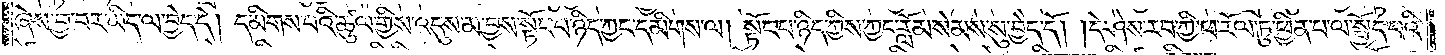ཞེས་བྱ་བར་ཡིད་ལ་བྱེད་དེ། དམིགས་པའི་ཚུལ་གྱིས་འདུས་མ་བྱས་སྟོང་པ་ཉིད་ཀྱང་དམིགས་ལ། སྟོང་པ་ཉིད་ཀྱིས་ཀྱང་རློམ་སེམས་སུ་བྱེད་དོ། །དེ་ཤེས་རབ་ཀྱི་ཕ་རོལ་ཏུ་ཕྱིན་པ་ལ་སྤྱོད་པའི་
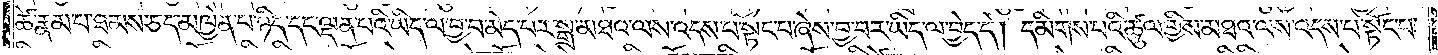ཚེ་རྣམ་པ་ཐམས་ཅད་མཁྱེན་པ་ཉིད་དང་ལྡན་པའི་ཡིད་ལ་བྱ་བ་མེད་པར་སྒྲ་མཐའ་ལས་འདས་པ་སྟོང་པ་ཞེས་བྱ་བར་ཡིད་ལ་བྱེད་དེ། དམིགས་པའི་ཚུལ་གྱིས་མཐའ་ལས་འདས་པ་སྟོང་པ་
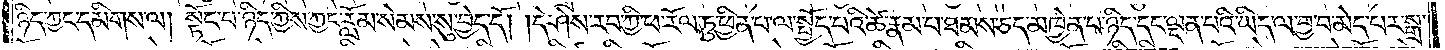ཉིད་ཀྱང་དམིགས་ལ། སྟོང་པ་ཉིད་ཀྱིས་ཀྱང་རློམ་སེམས་སུ་བྱེད་དོ། །དེ་ཤེས་རབ་ཀྱི་ཕ་རོལ་ཏུ་ཕྱིན་པ་ལ་སྤྱོད་པའི་ཚེ་རྣམ་པ་ཐམས་ཅད་མཁྱེན་པ་ཉིད་དང་ལྡན་པའི་ཡིད་ལ་བྱ་བ་མེད་པར་སྒྲ་
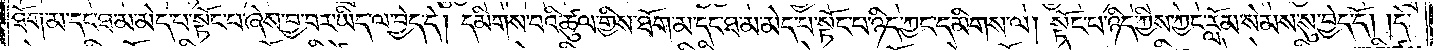ཐོག་མ་དང་ཐ་མ་མེད་པ་སྟོང་པ་ཞེས་བྱ་བར་ཡིད་ལ་བྱེད་དེ། དམིགས་པའི་ཚུལ་གྱིས་ཐོག་མ་དང་ཐ་མ་མེད་པ་སྟོང་པ་ཉིད་ཀྱང་དམིགས་ལ། སྟོང་པ་ཉིད་ཀྱིས་ཀྱང་རློམ་སེམས་སུ་བྱེད་དོ། །དེ་
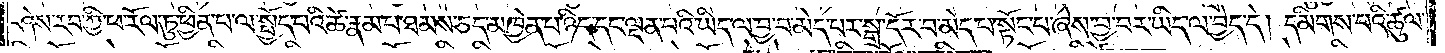ཤེས་རབ་ཀྱི་ཕ་རོལ་ཏུ་ཕྱིན་པ་ལ་སྤྱོད་པའི་ཚེ་རྣམ་པ་ཐམས་ཅད་མཁྱེན་པ་ཉིད་དང་ལྡན་པའི་ཡིད་ལ་བྱ་བ་མེད་པར་སྒྲ་དོར་བ་མེད་པ་སྟོང་པ་ཞེས་བྱ་བར་ཡིད་ལ་བྱེད་དེ། དམིགས་པའི་ཚུལ་
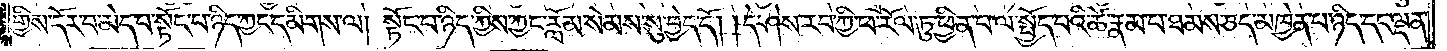གྱིས་དོར་བ་མེད་པ་སྟོང་པ་ཉིད་ཀྱང་དམིགས་ལ། སྟོང་པ་ཉིད་ཀྱིས་ཀྱང་རློམ་སེམས་སུ་བྱེད་དོ། །དེ་ཤེས་རབ་ཀྱི་ཕ་རོལ་ཏུ་ཕྱིན་པ་ལ་སྤྱོད་པའི་ཚེ་རྣམ་པ་ཐམས་ཅད་མཁྱེན་པ་ཉིད་དང་ལྡན་
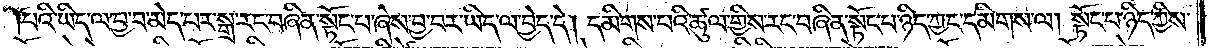པའི་ཡིད་ལ་བྱ་བ་མེད་པར་སྒྲ་རང་བཞིན་སྟོང་པ་ཞེས་བྱ་བར་ཡིད་ལ་བྱེད་དེ། དམིགས་པའི་ཚུལ་གྱིས་རང་བཞིན་སྟོང་པ་ཉིད་ཀྱང་དམིགས་ལ། སྟོང་པ་ཉིད་ཀྱིས་
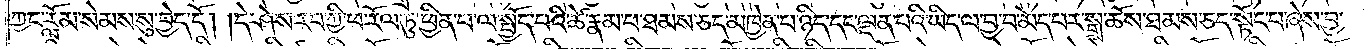ཀྱང་རློམ་སེམས་སུ་བྱེད་དོ། །དེ་ཤེས་རབ་ཀྱི་ཕ་རོལ་ཏུ་ཕྱིན་པ་ལ་སྤྱོད་པའི་ཚེ་རྣམ་པ་ཐམས་ཅད་མཁྱེན་པ་ཉིད་དང་ལྡན་པའི་ཡིད་ལ་བྱ་བ་མེད་པར་སྒྲ་ཆོས་ཐམས་ཅད་སྟོང་པ་ཞེས་བྱ་
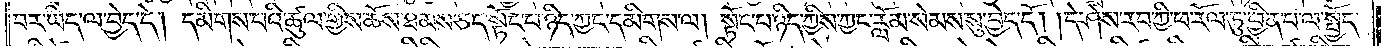བར་ཡིད་ལ་བྱེད་དེ། དམིགས་པའི་ཚུལ་གྱིས་ཆོས་ཐམས་ཅད་སྟོང་པ་ཉིད་ཀྱང་དམིགས་ལ། སྟོང་པ་ཉིད་ཀྱིས་ཀྱང་རློམ་སེམས་སུ་བྱེད་དོ། །དེ་ཤེས་རབ་ཀྱི་ཕ་རོལ་ཏུ་ཕྱིན་པ་ལ་སྤྱོད་
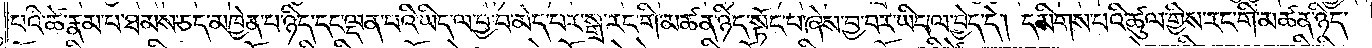པའི་ཚེ་རྣམ་པ་ཐམས་ཅད་མཁྱེན་པ་ཉིད་དང་ལྡན་པའི་ཡིད་ལ་བྱ་བ་མེད་པར་སྒྲ་རང་གི་མཚན་ཉིད་སྟོང་པ་ཞེས་བྱ་བར་ཡིད་ལ་བྱེད་དེ། དམིགས་པའི་ཚུལ་གྱིས་རང་གི་མཚན་ཉིད་
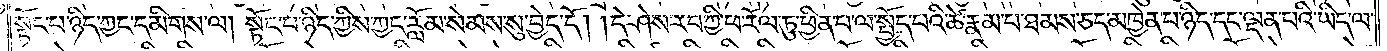སྟོང་པ་ཉིད་ཀྱང་དམིགས་ལ། སྟོང་པ་ཉིད་ཀྱིས་ཀྱང་རློམ་སེམས་སུ་བྱེད་དོ། །དེ་ཤེས་རབ་ཀྱི་ཕ་རོལ་ཏུ་ཕྱིན་པ་ལ་སྤྱོད་པའི་ཚེ་རྣམ་པ་ཐམས་ཅད་མཁྱེན་པ་ཉིད་དང་ལྡན་པའི་ཡིད་ལ་
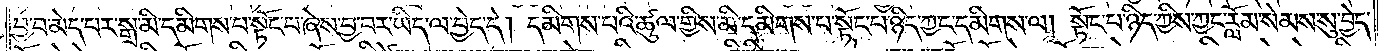བྱ་བ་མེད་པར་སྒྲ་མི་དམིགས་པ་སྟོང་པ་ཞེས་བྱ་བར་ཡིད་ལ་བྱེད་དེ། དམིགས་པའི་ཚུལ་གྱིས་མི་དམིགས་པ་སྟོང་པ་ཉིད་ཀྱང་དམིགས་ལ། སྟོང་པ་ཉིད་ཀྱིས་ཀྱང་རློམ་སེམས་སུ་བྱེད་
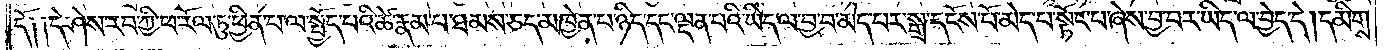དོ༑ ༑དེ་ཤེས་རབ་ཀྱི་ཕ་རོལ་ཏུ་ཕྱིན་པ་ལ་སྤྱོད་པའི་ཚེ་རྣམ་པ་ཐམས་ཅད་མཁྱེན་པ་ཉིད་དང་ལྡན་པའི་ཡིད་ལ་བྱ་བ་མེད་པར་སྒྲ་དངོས་པོ་མེད་པ་སྟོང་པ་ཞེས་བྱ་བར་ཡིད་ལ་བྱེད་དེ། དམིགས་
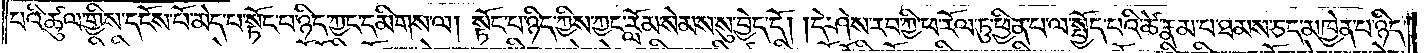པའི་ཚུལ་གྱིས་དངོས་པོ་མེད་པ་སྟོང་པ་ཉིད་ཀྱང་དམིགས་ལ། སྟོང་པ་ཉིད་ཀྱིས་ཀྱང་རློམ་སེམས་སུ་བྱེད་དོ། །དེ་ཤེས་རབ་ཀྱི་ཕ་རོལ་ཏུ་ཕྱིན་པ་ལ་སྤྱོད་པའི་ཚེ་རྣམ་པ་ཐམས་ཅད་མཁྱེན་པ་ཉིད་
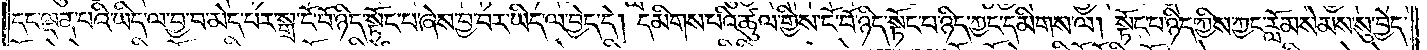དང་ལྡན་པའི་ཡིད་ལ་བྱ་བ་མེད་པར་སྒྲ་ངོ་བོ་ཉིད་སྟོང་པ་ཞེས་བྱ་བར་ཡིད་ལ་བྱེད་དེ། དམིགས་པའི་ཚུལ་གྱིས་ངོ་བོ་ཉིད་སྟོང་པ་ཉིད་ཀྱང་དམིགས་ལ། སྟོང་པ་ཉིད་ཀྱིས་ཀྱང་རློམ་སེམས་སུ་བྱེད་
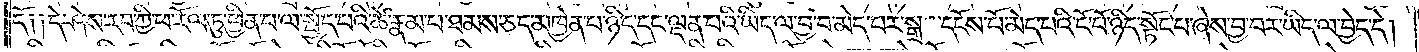དོ༑ ༑དེ་ཤེས་རབ་ཀྱི་ཕ་རོལ་ཏུ་ཕྱིན་པ་ལ་སྤྱོད་པའི་ཚེ་རྣམ་པ་ཐམས་ཅད་མཁྱེན་པ་ཉིད་དང་ལྡན་པའི་ཡིད་ལ་བྱ་བ་མེད་པར་སྒྲ་དངོས་པོ་མེད་པའི་ངོ་བོ་ཉིད་སྟོང་པ་ཞེས་བྱ་བར་ཡིད་ལ་བྱེད་དེ།
